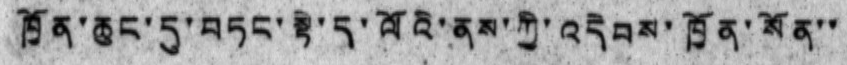ཁྱོན་ཆུང་དུ་བཏང་སྟེ་ད་ལོའི་ནས་ཀྱི་འདེབས་ཁྱོན་སོན་་
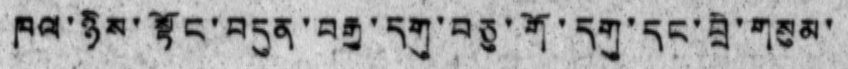ཁལ་ཉིས་སྟོང་བདུན་བརྒྱ་དགུ་བཅུ་གོ་དགུ་དང་བྲེ་གསུམ་
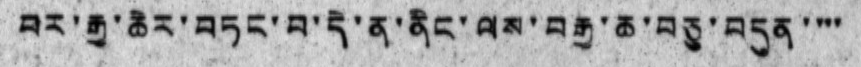བར་རྒྱ་ཆེར་བཏང་བ་དེ་ན་ནིང་ལས་བརྒྱ་ཆ་བཅུ་བདུན་་་་
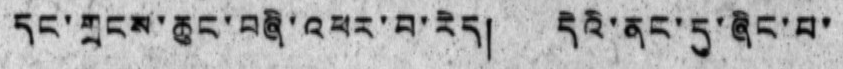དང་གྲངས་ཆུང་བཞི་འཕར་བ་རེད། དེའི་ནང་དུ་ཞིང་པ་
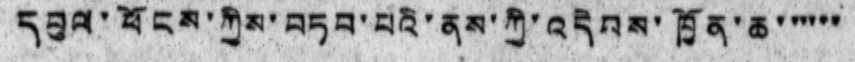དབུལ་ཕོངས་ཀྱིས་བཏབ་པའི་ནས་ཀྱི་འདེབས་ཁྱོན་ཆ་་་་་་
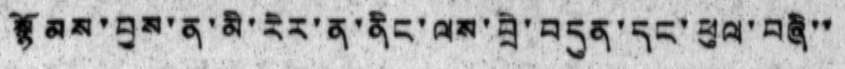སྙོམས་བྱས་ན་མི་རེར་ན་ནིང་ལས་བྲེ་བདུན་དང་ཕུལ་བཞི་་
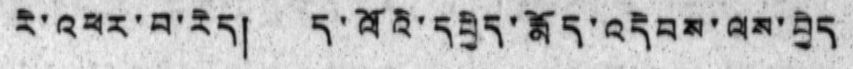རེ་འཕར་བ་རེད། ད་ལོའི་དཔྱིད་རྨོད་འདེབས་ལས་བྱེད
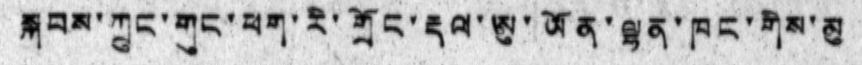སྐབས་ཀྲུང་གུང་ཕག་རི་གྲོང་རྡལ་ཨུ་ཡོན་ལྷན་ཁང་གིས་མུ
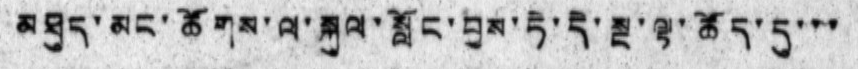མཐུད་མང་ཚོགས་ལ་སྐུལ་སློང་བྱས་ཏེ་དེ་སྔ་ལྟ་ཚོད་དུ་་་
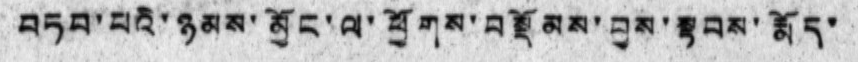བཏབ་པའི་ཉམས་མྱོང་ལ་ཕྱོགས་བསྡོམས་བྱས་སྟབས་རྨོད་
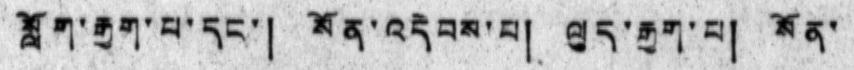སློག་རྒྱག་པ་དང་་། སོན་འདེབས་པ། ལུད་རྒྱག་པ། སོན་
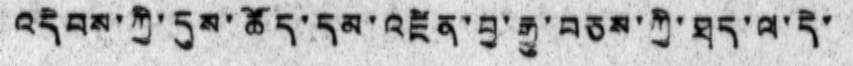འདེབས་ཀྱི་དུས་ཚོད་དམ་འཛིན་བྱ་རྒྱུ་བཅས་ཀྱི་ཐད་ལ་དེ་
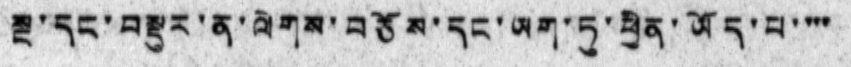སྔ་དང་བསྡུར་ན་ལེགས་བཅོས་དང་ཡག་ཏུ་ཕྱིན་ཡོད་པ་་་་
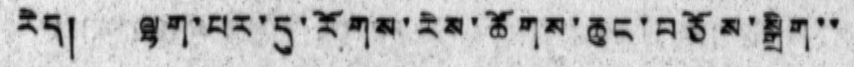རེད། ལྷག་པར་དུ་རོགས་རེས་ཚོགས་ཆུང་བཅོས་སྒྲིག་་
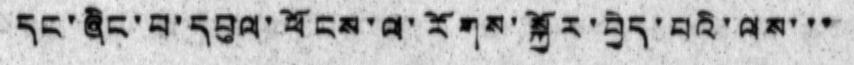དང་ཞིང་པ་དབུལ་ཕོངས་ལ་རོགས་སྐྱོར་བྱེད་པའི་ལས་་་
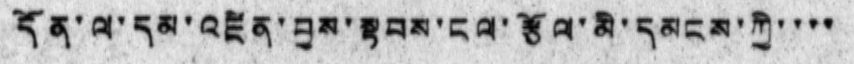དོན་ལ་དམ་འཛིན་བྱས་སྟབས་ངལ་རྩོལ་མི་དམངས་ཀྱི་་་་
